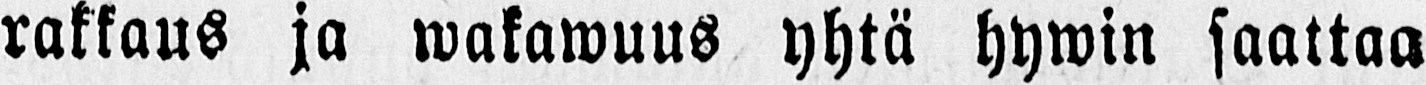rakkaus ja wakawuus yhtä hywin saattaa
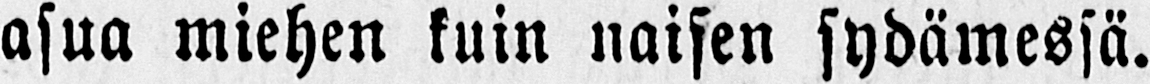asua miehen kuin naisen sydämessä.
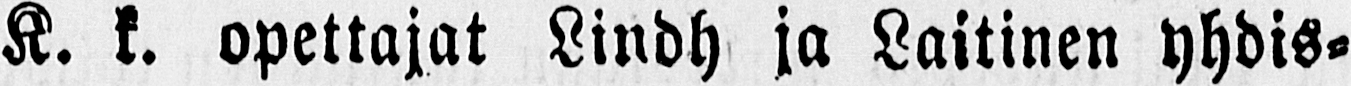K. k. opettajat Lindh ja Laitinen yhdis-
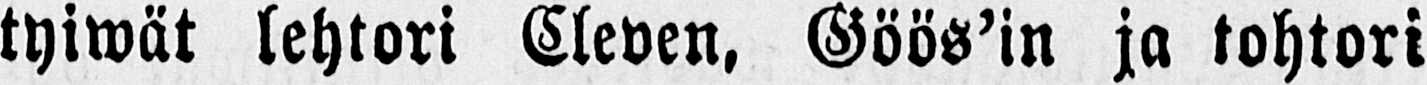tyiwät lehtori Cleven, Göös’in ja tohtori
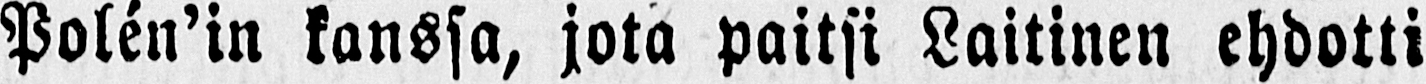Polen’in kanssa, jota paitsi Laitinen ehdotti
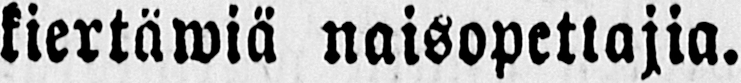kiertäwiä naisopettajia.
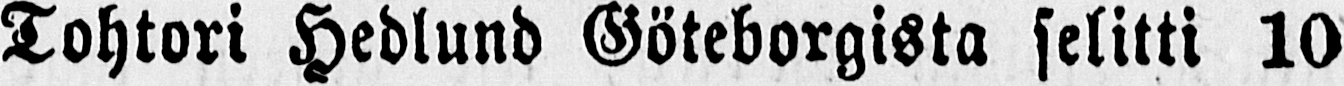Tohtori Hedlund Göteborgista selitti 10
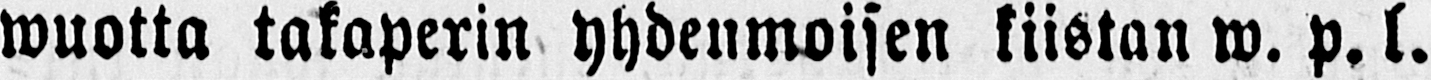wuotta takaperin yhdenmoisen kiistan w. p. l.
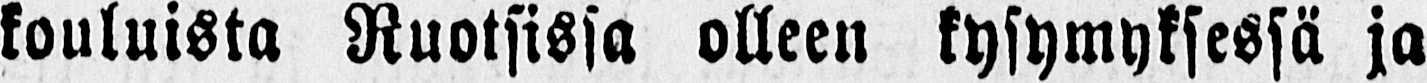kouluista Ruotsissa olleen kysymyksessä ja
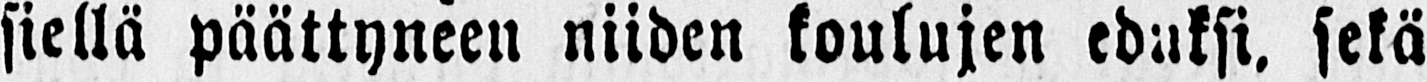siellä päättyneen niiden koulujen eduksi, sekä
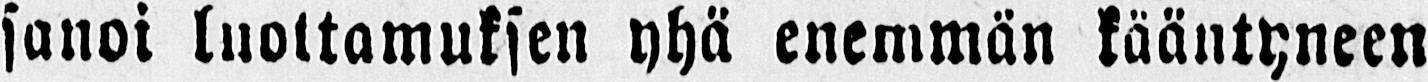sanoi luottamuksen yhä enemmän kääntyneen
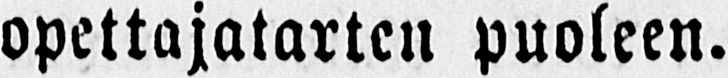opettajatarten puoleen.
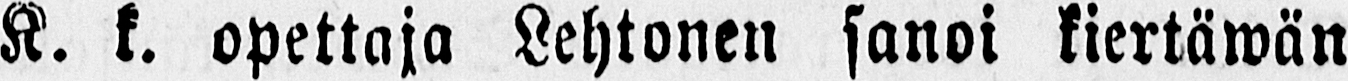K. k. opettaja Lehtonen sanoi kiertäwän
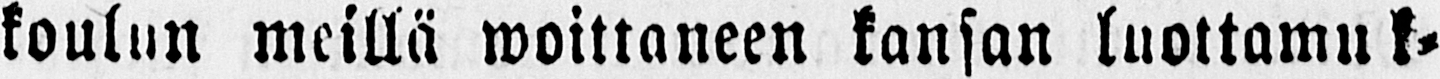koulun meillä woittaneen kansan luottamuk-
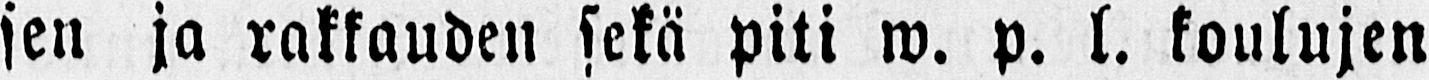sen ja rakkauden sekä piti w. p. l. koulujen
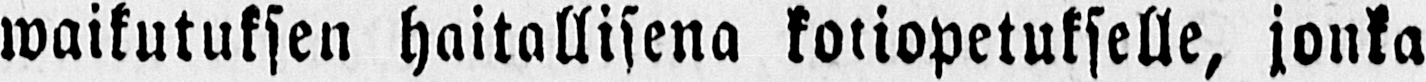waikutuksen haitallisena kotiopetukselle, jonka
